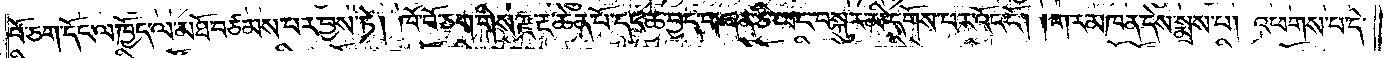བོ་ཅག་དོང་ལ་ཁྱོད་ལ་མཐོ་བཙམས་པར་བྱས་ཏེ། ཁོ་བོ་ཅག་གིས་རྫ་རྔ་ཆེན་པོ་དང་ཆ་བྱད་གཞན་ཅི་ཡང་བསྐུར་མི་དགོས་པར་འོང་ངོ༌། །གར་མཁན་དེས་སྨྲས་པ། འཕགས་པ་དེ་
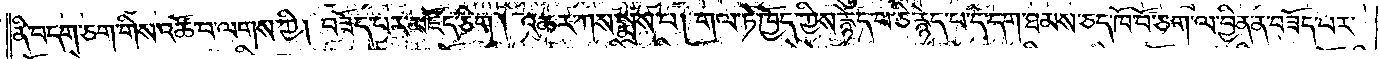ནི་བདག་ཅག་གིས་འཚོ་བ་ལགས་ཀྱི། བཟོད་པར་མཛོད་ཅིག ། འཆར་ཀས་སྨྲས་པ། གལ་ཏེ་ཁྱོད་ཀྱིས་རྙེད་པ་ཅི་རྙེད་པ་དེ་དག་ཐམས་ཅད་ཁོ་བོ་ཅག་ལ་བྱིན་ན་བཟོད་པར་
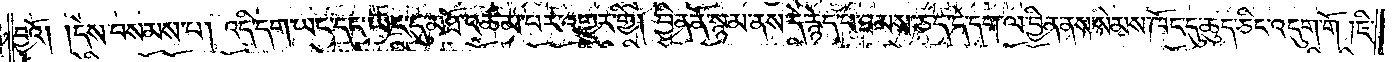བྱའོ། །དེས་བསམས་པ། འདི་དག་ཡང་དང་ཡང་དུ་མཐོ་འཚམ་པར་འགྱུར་གྱི། བྱིན་ནོ་སྙམ་ནས་དེ་རྙེད་པ་ཐམས་ཅད་དེ་དག་ལ་བྱིན་ནས་སེམས་ཁོང་དུ་ཆུད་ཅིང་འདུག་གོ །ཇི་
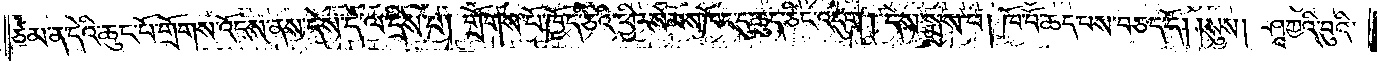ཙམ་ན་དེའི་ཆུང་པོ་གྲོགས་འོངས་ནས་དེས་དེ་ལ་དྲིས་པ། གྲོགས་པོ་ཁྱོད་ཅིའི་ཕྱིར་སེམས་ཁོང་དུ་ཆུད་ཅིང་འདུག །དེས་སྨྲས་པ། ཁོ་བོ་ཆད་པས་བཅད་དོ། །སུས། ཤཱཀྱའི་བུའི་
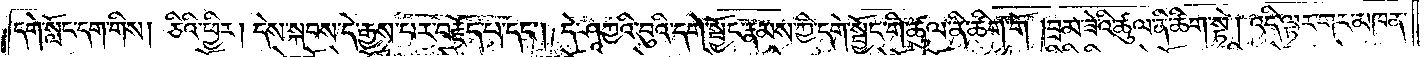དགེ་སློང་དག་གིས། ཅིའི་ཕྱིར། དེས་སྐབས་དེ་རྒྱས་པར་བརྗོད་པ་དང༌། དེ་ཤཱཀྱའི་བུའི་དགེ་སྦྱོང་རྣམས་ཀྱི་དགེ་སྦྱོང་གི་ཚུལ་ནི་ཚིག་གོ །བྲམ་ཟེའི་ཚུལ་ནི་ཚིག་སྟེ། འདི་ལྟར་གར་མཁན་
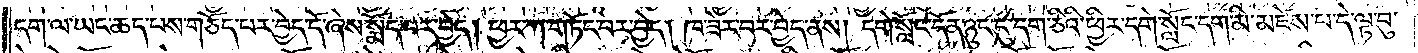དག་ལ་ཡང་ཆད་པས་གཅོད་པར་བྱེད་དོ་ཞེས་སྨོད་པར་བྱེད། ཕྱར་ཀ་གཏོང་བར་བྱེད། ཁ་ཟེར་བར་བྱེད་ནས། དགེ་སློང་དོན་ཉུང་དུ་དག་ཅིའི་ཕྱིར་དགེ་སློང་དག་མི་མཛེས་པ་དེ་ལྟ་བུ་
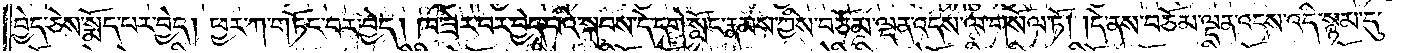བྱེད་ཅེས་སྨོད་པར་བྱེད། ཕྱར་ཀ་གཏོང་བར་བྱེད། ཁ་ཟེར་བར་བྱེད་པའི་སྐབས་དེ་དགེ་སློང་རྣམས་ཀྱིས་བཅོམ་ལྡན་འདས་ལ་གསོལ་ཏོ། །དེ་ནས་བཅོམ་ལྡན་འདས་འདི་སྙམ་དུ་
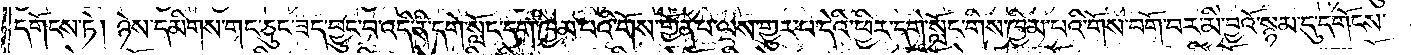དགོངས་ཏེ། ཉེས་དམིགས་གང་ཅུང་ཟད་བྱུང་བ་འདི་ནི་དགེ་སློང་དག་ཁྱིམ་པའི་གོས་གྱོན་པ་ལས་གྱུར་པ་དེའི་ཕྱིར་དགེ་སློང་གིས་ཁྱིམ་པའི་གོས་བགོ་བར་མི་བྱའོ་སྙམ་དུ་དགོངས་
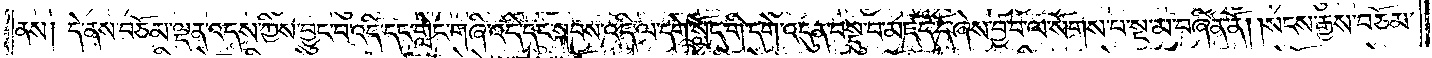ནས། དེ་ནས་བཅོམ་ལྡན་འདས་ཀྱིས་བྱུང་བ་འདི་དང་གླེང་གཞི་འདི་དང་སྐབས་འདི་ལ་དགེ་སློང་གི་དགེ་འདུན་བསྡུ་བ་མཛད་དོ་ཞེས་བྱ་བ་ལ་སོགས་པ་སྔ་མ་བཞིན་ནོ། །སངས་རྒྱས་བཅོམ་
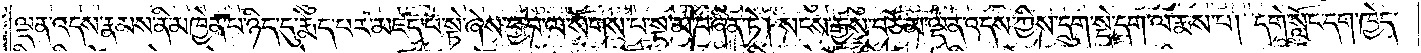ལྡན་འདས་རྣམས་ནི་མཁྱེན་པ་ཉིད་དུ་རྨེད་པར་མཛད་པ་སྟེ་ཞེས་བྱ་བ་ལ་སོགས་པ་སྔ་མ་བཞིན་ཏེ། སངས་རྒྱས་བཅོམ་ལྡན་འདས་ཀྱིས་དྲུག་སྡེ་དག་ལ་རྨས་པ། དགེ་སློང་དག་ཁྱེད་
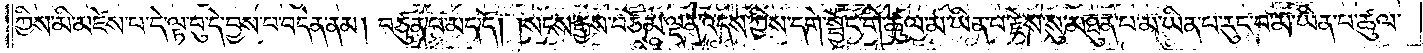ཀྱིས་མི་མཛེས་པ་དེ་ལྟ་བུ་དེ་བྱས་པ་བདེན་ནམ། བཙུན་པ་མད་དོ། །སངས་རྒྱས་བཅོམ་ལྡན་འདས་ཀྱིས་དགེ་སྦྱོང་གི་ཚུལ་མ་ཡིན་པ་རྗེས་སུ་མཐུན་པ་མ་ཡིན་པ་རུང་བ་མ་ཡིན་པ་ཚུལ་
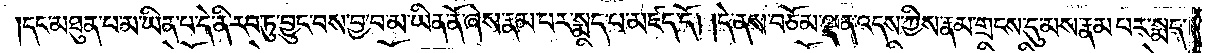དང་མཐུན་པ་མ་ཡིན་པ་དེ་ནི་རབ་ཏུ་བྱུང་བས་བྱ་བ་མ་ཡིན་ནོ་ཞེས་རྣམ་པར་སྨད་པ་མཛད་དོ། །དེ་ནས་བཅོམ་ལྡན་འདས་ཀྱིས་རྣམ་གྲངས་དུ་མས་རྣམ་པར་སྨད་
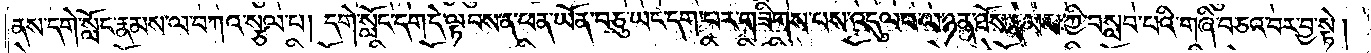ནས་དགེ་སློང་རྣམས་ལ་བཀའ་སྩལ་པ། དགེ་སློང་དག་དེ་ལྟ་བས་ན་ཕན་ཡོན་བཅུ་ཡང་དག་པར་གཟིགས་པས་འདུལ་བ་ལ་ཉན་ཐོས་རྣམས་ཀྱི་བསླབ་པའི་གཞི་བཅའ་བར་བྱ་སྟེ།
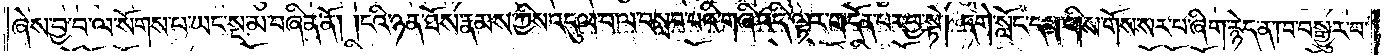ཞེས་བྱ་བ་ལ་སོགས་པ་ཡང་སྔ་མ་བཞིན་ནོ། །ངའི་ཉན་ཐོས་རྣམས་ཀྱིས་འདུལ་བ་ལ་བསླབ་པའི་གཞི་འདི་ལྟར་གདོན་པར་བྱ་སྟེ། དགེ་སློང་དག་གིས་གོས་སར་པ་ཞིག་རྙེད་ན་ཁ་བསྒྱུར་བ་
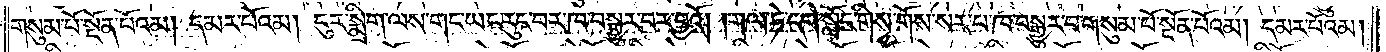གསུམ་པོ་སྔོན་པོའམ། དམར་པོའམ། ངུར་སྨྲིག་ལས་གང་ཡང་རུང་བར་ཁ་བསྒྱུར་བར་བྱའོ། །གལ་ཏེ་དགེ་སློང་གིས་གོས་སར་པ་ཁ་བསྒྱུར་བ་གསུམ་པོ་སྔོན་པོའམ། དམར་པོའམ།
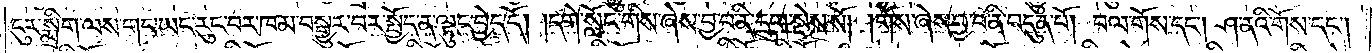ངུར་སྨྲིག་ལས་གང་ཡང་རུང་བར་ཁ་མ་བསྒྱུར་བར་སྤྱོད་ན་ལྟུང་བྱེད་དོ། །དགེ་སློང་གིས་ཞེས་བྱ་བ་ནི་དྲུག་སྡེས་སོ། །གོས་ཞེས་བྱ་བ་ནི་བདུན་པོ། བལ་གོས་དང༌། ཤ་ནའི་གོས་དང༌།
